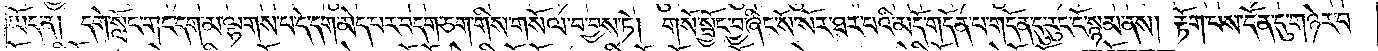ཡོད་ན། དགེ་སློང་གང་དག་མ་ལྷགས་པ་དེ་དག་མེད་པར་བདག་ཅག་གིས་གསོལ་བ་བྱས་ཏེ། གསོ་སྦྱོང་བྱ་ཞིང་སོ་སོར་ཐར་པའི་མདོ་གདོན་པ་གདོན་དུ་རུང་ངོ་སྙམ་ནས། རྟོག་པས་དོན་དུ་གཉེར་བ་
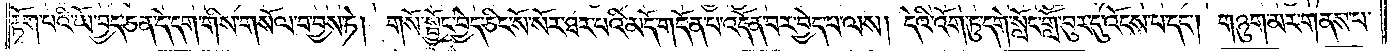རྟོག་པའི་ཡོ་བྱད་ཅན་དེ་དག་གིས་གསོལ་བ་བྱས་ཏེ། གསོ་སྦྱོང་བྱེད་ཅིང་སོ་སོར་ཐར་པའི་མདོ་གདོན་པ་འདོན་པར་བྱེད་པ་ལས། དེའི་འོག་ཏུ་དགེ་སློང་གློ་བུར་དུ་འོངས་པ་དང༌། གཉུག་མར་གནས་པ་
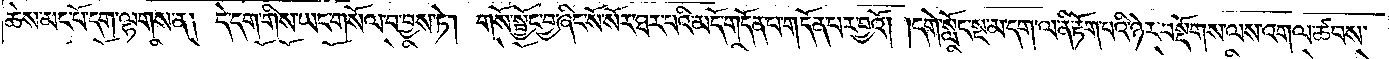ཆེས་མང་པོ་དག་ལྷགས་ན། དེ་དག་གིས་ཡང་གསོལ་བ་བྱས་ཏེ། གསོ་སྦྱོང་བྱ་ཞིང་སོ་སོར་ཐར་པའི་མདོ་གདོན་པ་གདོན་པར་བྱའོ། །དགེ་སློང་སྔ་མ་དག་ལ་ནི་རྟོག་པའི་ཉེར་བསྡོགས་ལས་འགལ་ཚབས་
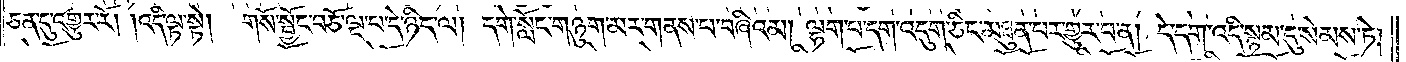ཅན་དུ་འགྱུར་རོ། །འདི་ལྟ་སྟེ།  གསོ་སྦྱོང་བཅོ་ལྔ་པ་དེ་ཉིད་ལ། དགེ་སློང་གཉུག་མར་གནས་པ་བཞིའམ། ལྷག་པ་དག་འདུག་ཅིང་མཐུན་པར་གྱུར་བ་ན། དེ་དག་འདི་སྙམ་དུ་སེམས་ཏེ།
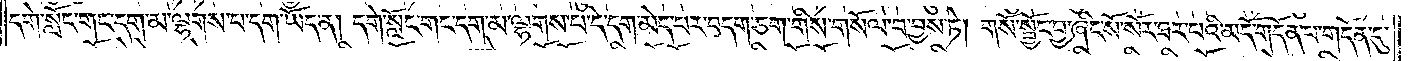དགེ་སློང་གང་དག་མ་ལྷགས་པ་དག་ཡོད་ན། དགེ་སློང་གང་དག་མ་ལྷགས་པ་དེ་དག་མེད་པར་བདག་ཅག་གིས་གསོལ་བ་བྱས་ཏེ། གསོ་སྦྱོང་བྱ་ཞིང་སོ་སོར་ཐར་པའི་མདོ་གདོན་པ་གདོན་དུ་
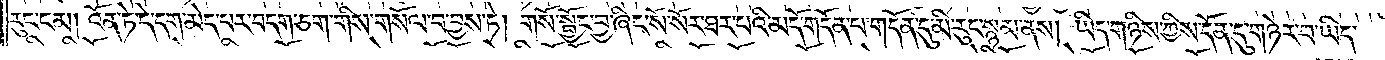རུང་ངམ། འོན་ཏེ་དེ་དག་མེད་པར་བདག་ཅག་གིས་གསོལ་བ་བྱས་ཏེ། གསོ་སྦྱོང་བྱ་ཞིང་སོ་སོར་ཐར་པའི་མདོ་གདོན་པ་གདོན་དུ་མི་རུང་སྙམ་ནས། ཡིད་གཉིས་ཀྱིས་དོན་དུ་གཉེར་བ་ཡིད་
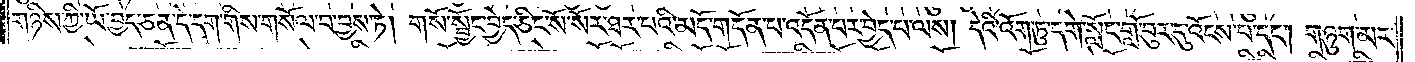གཉིས་ཀྱི་ཡོ་བྱད་ཅན་དེ་དག་གིས་གསོལ་བ་བྱས་ཏེ། གསོ་སྦྱོང་བྱེད་ཅིང་སོ་སོར་ཐར་པའི་མདོ་གདོན་པ་འདོན་པར་བྱེད་པ་ལས། དེའི་འོག་ཏུ་དགེ་སློང་གློ་བུར་དུ་འོངས་པ་དང༌། གཉུག་མར་
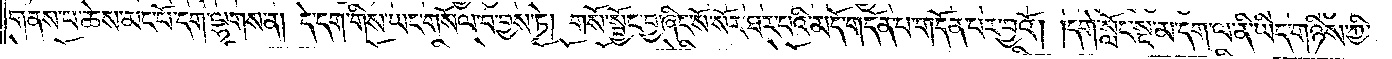གནས་པ་ཆེས་མང་པོ་དག་ལྷགས་ན། དེ་དག་གིས་ཡང་གསོལ་བ་བྱས་ཏེ། གསོ་སྦྱོང་བྱ་ཞིང་སོ་སོར་ཐར་པའི་མདོ་གདོན་པ་གདོན་པར་བྱའོ། །དགེ་སློང་སྔ་མ་དག་ལ་ནི་ཡིད་གཉིས་ཀྱི་
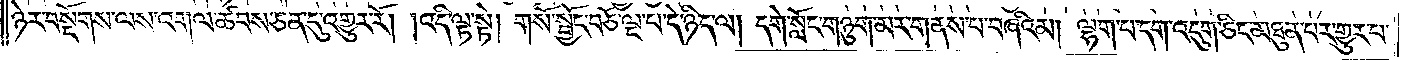ཉེར་བསྡོགས་ལས་འགལ་ཚབས་ཅན་དུ་འགྱུར་རོ། །འདི་ལྟ་སྟེ། གསོ་སྦྱོང་བཅོ་ལྔ་པ་དེ་ཉིད་ལ། དགེ་སློང་གཉུག་མར་གནས་པ་བཞིའམ། ལྷག་པ་དག་འདུག་ཅིང་མཐུན་པར་གྱུར་པ་
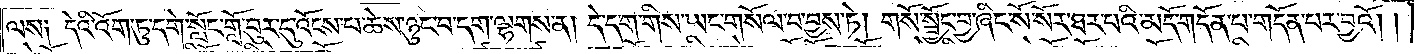ལས། དེའི་འོག་ཏུ་དགེ་སློང་གློ་བུར་དུ་འོངས་པ་ཆེས་ཉུང་བ་དག་ལྷགས་ན། དེ་དག་གིས་ཡང་གསོལ་བ་བྱས་ཏེ། གསོ་སྦྱོང་བྱ་ཞིང་སོ་སོར་ཐར་པའི་མདོ་གདོན་པ་གདོན་པར་བྱའོ། །
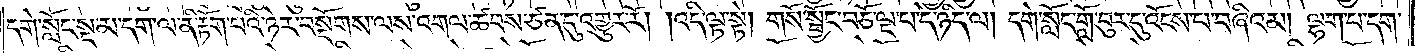དགེ་སློང་སྔ་མ་དག་ལ་ནི་རྟོག་པའི་ཉེར་བསྡོགས་ལས་འགལ་ཚབས་ཙན་དུ་འགྱུར་རོ། །འདི་ལྟ་སྟེ། གསོ་སྦྱོང་བཅོ་ལྔ་པ་དེ་ཉིད་ལ། དགེ་སློང་གློ་བུར་དུ་འོངས་པ་བཞིའམ། ལྷག་པ་དག་
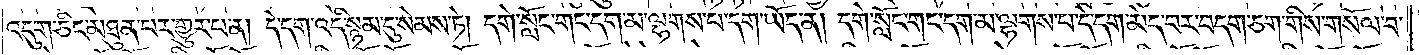འདུག་ཅིང་མཐུན་པར་གྱུར་པ་ན། དེ་དག་འདི་སྙམ་དུ་སེམས་ཏེ། དགེ་སློང་གང་དག་མ་ལྷགས་པ་དག་ཡོད་ན། དགེ་སློང་གང་དག་མ་ལྷགས་པ་དེ་དག་མེད་བར་བདག་ཅག་གིས་གསོལ་བ་
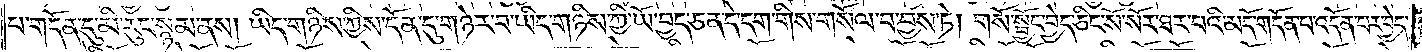པ་གདོན་དུ་མི་རུང་སྙམ་ནས། ཡིད་གཉིས་ཀྱིས་དོན་དུ་གཉེར་བ་ཡིད་གཉིས་ཀྱི་ཡོ་བྱད་ཅན་དེ་དག་གིས་གསོལ་བ་བྱས་ཏེ། གསོ་སྦྱོང་བྱེད་ཅིང་སོ་སོར་ཐར་པའི་མདོ་གདོན་པ་འདོན་པར་བྱེད་
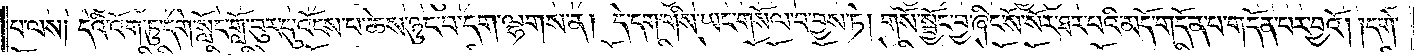པ་ལས། དེའི་འོག་ཏུ་དགེ་སློང་གློ་བུར་དུ་འོངས་པ་ཆེས་ཉུང་བ་དག་ལྷགས་ན། དེ་དག་གིས་ཡང་གསོལ་བ་བྱས་ཏེ། གསོ་སྦྱོང་བྱ་ཞིང་སོ་སོར་ཐར་པའི་མདོ་གདོན་པ་གདོན་པར་བྱའོ། །དགེ་
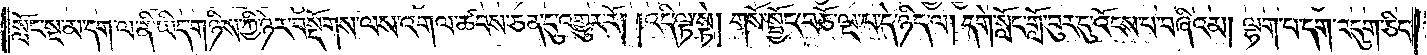སློང་སྔ་མ་དག་ལ་ནི་ཡིད་གཉིས་ཀྱི་ཉེར་བསྡོགས་ལས་འགལ་ཚབས་ཅན་དུ་འགྱུར་རོ། །འདི་ལྟ་སྟེ། གསོ་སྦྱོང་བཅོ་ལྔ་པ་དེ་ཉིད་ལ། དགེ་སློང་གློ་བུར་དུ་འོངས་པ་བཞིའམ། ལྷག་པ་དག་འདུག་ཅིང་
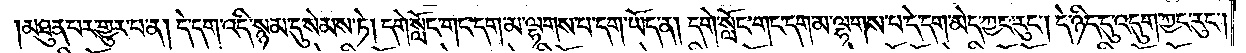མཐུན་པར་གྱུར་པ་ན། དེ་དག་འདི་སྙམ་དུ་སེམས་ཏེ། དགེ་སློང་གང་དག་མ་ལྷགས་པ་དག་ཡོད་ན། དགེ་སློང་གང་དག་མ་ལྷགས་པ་དེ་དག་མེད་ཀྱང་རུང༌། དེ་ཉིད་དུ་འདུག་ཀྱང་རུང༌།
